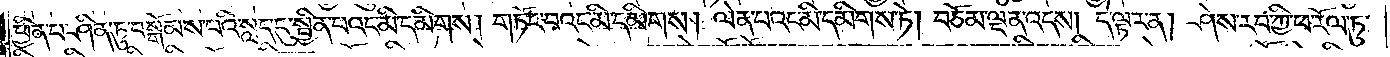ཕྱིན་པ་ཤིན་ཏུ་བསྒོམས་པའི་སླད་དུ་སྦྱིན་པའང་མི་དམིགས། གཏོང་བའང་མི་དམིགས། ལེན་པའང་མི་དམིགས་ཏེ། བཅོམ་ལྡན་འདས། དེ་ལྟར་ན། ཤེས་རབ་ཀྱི་ཕ་རོལ་ཏུ་
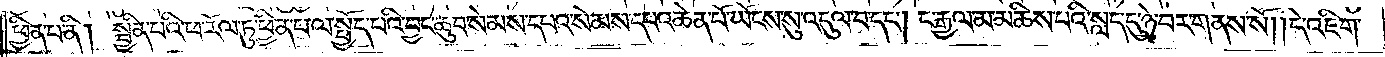ཕྱིན་པ་ནི། སྦྱིན་པའི་ཕ་རོལ་ཏུ་ཕྱིན་པ་ལ་སྤྱོད་པའི་བྱང་ཆུབ་སེམས་དཔའ་སེམས་དཔའ་ཆེན་པོ་ཡོངས་སུ་འདུལ་བ་དང༌། ང་རྒྱལ་མ་མཆིས་པའི་སླད་དུ་ཉེ་བར་གནས་སོ། །དེ་འཇིག་
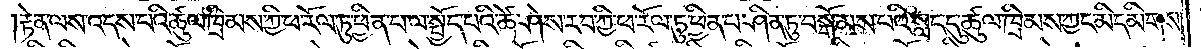རྟེན་ལས་འདས་པའི་ཚུལ་ཁྲིམས་ཀྱི་ཕ་རོལ་ཏུ་ཕྱིན་པ་ལ་སྤྱོད་པའི་ཚེ་ཤེས་རབ་ཀྱི་ཕ་རོལ་ཏུ་ཕྱིན་པ་ཤིན་ཏུ་བསྒོམས་པའི་སླད་དུ་ཚུལ་ཁྲིམས་ཀྱང་མི་དམིགས།
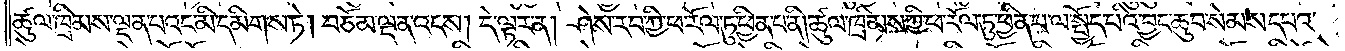ཚུལ་ཁྲིམས་དང་ལྡན་པའང་མི་དམིགས་ཏེ། བཅོམ་ལྡན་འདས། དེ་ལྟར་ན། ཤེས་རབ་ཀྱི་ཕ་རོལ་ཏུ་ཕྱིན་པ་ནི་ཚུལ་ཁྲིམས་ཀྱི་ཕ་རོལ་ཏུ་ཕྱིན་པ་ལ་སྤྱོད་པའི་བྱང་ཆུབ་སེམས་དཔའ་
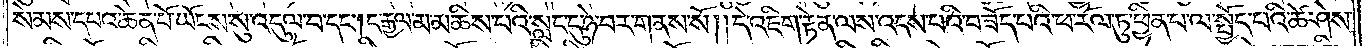སེམས་དཔའ་ཆེན་པོ་ཡོངས་སུ་འདུལ་བ་དང༌། ང་རྒྱལ་མ་མཆིས་པའི་སླད་དུ་ཉེ་བར་གནས་སོ། །དེ་འཇིག་རྟེན་ལས་འདས་པའི་བཟོད་པའི་ཕ་རོལ་ཏུ་ཕྱིན་པ་ལ་སྤྱོད་པའི་ཚེ་ཤེས་
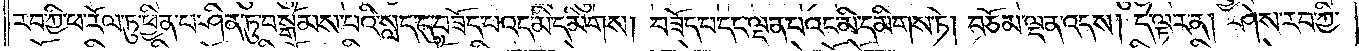རབ་ཀྱི་ཕ་རོལ་ཏུ་ཕྱིན་པ་ཤིན་ཏུ་བསྒོམས་པའི་སླད་དུ་བཟོད་པའང་མི་དམིགས། བཟོད་པ་དང་ལྡན་པའང་མི་དམིགས་ཏེ། བཅོམ་ལྡན་འདས། དེ་ལྟར་ན། ཤེས་རབ་ཀྱི་
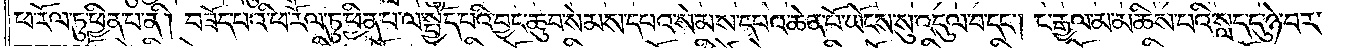ཕ་རོལ་ཏུ་ཕྱིན་པ་ནི། བཟོད་པའི་ཕ་རོལ་ཏུ་ཕྱིན་པ་ལ་སྤྱོད་པའི་བྱང་ཆུབ་སེམས་དཔའ་སེམས་དཔའ་ཆེན་པོ་ཡོངས་སུ་འདུལ་བ་དང༌། ང་རྒྱལ་མ་མཆིས་པའི་སླད་དུ་ཉེ་བར་
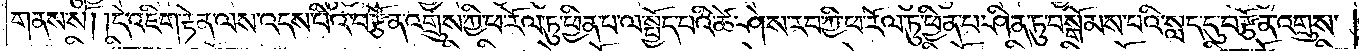གནས་སོ། །དེ་འཇིག་རྟེན་ལས་འདས་པའི་བརྩོན་འགྲུས་ཀྱི་ཕ་རོལ་ཏུ་ཕྱིན་པ་ལ་སྤྱོད་པའི་ཚེ་ཤེས་རབ་ཀྱི་ཕ་རོལ་ཏུ་ཕྱིན་པ་ཤིན་ཏུ་བསྒོམས་པའི་སླད་དུ་བརྩོན་འགྲུས་
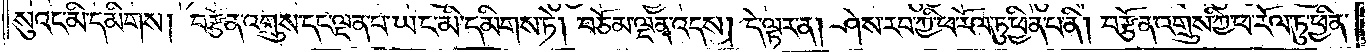སུའང་མི་དམིགས། བརྩོན་འགྲུས་དང་ལྡན་པར་ཡང་མི་དམིགས་ཏེ། བཅོམ་ལྡན་འདས། དེ་ལྟར་ན། ཤེས་རབ་ཀྱི་ཕ་རོལ་ཏུ་ཕྱིན་པ་ནི། བརྩོན་འགྲུས་ཀྱི་ཕ་རོལ་ཏུ་ཕྱིན་
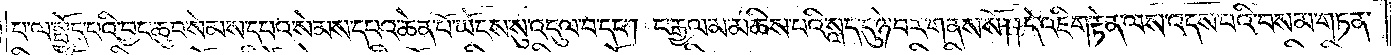པ་ལ་སྤྱོད་པའི་བྱང་ཆུབ་སེམས་དཔའ་སེམས་དཔའ་ཆེན་པོ་ཡོངས་སུ་འདུལ་བ་དང༌། ང་རྒྱལ་མ་མཆིས་པའི་སླད་དུ་ཉེ་བར་གནས་སོ། །དེ་འཇིག་རྟེན་ལས་འདས་པའི་བསམ་གཏན་
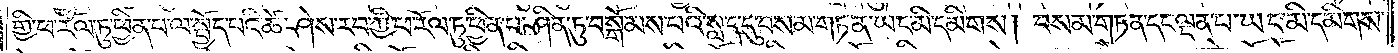གྱི་ཕ་རོལ་ཏུ་ཕྱིན་པ་ལ་སྤྱོད་པའི་ཚེ་ཤེས་རབ་ཀྱི་ཕ་རོལ་ཏུ་ཕྱིན་པ་ཤིན་ཏུ་བསྒོམས་པའི་སླད་དུ་བསམ་གཏན་དུའང་མི་དམིགས། བསམ་གཏན་དང་ལྡན་པར་ཡང་མི་དམིགས་
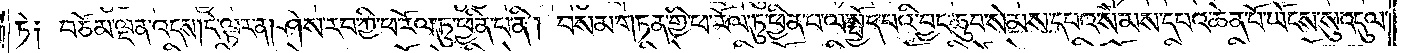ཏེ། བཅོམ་ལྡན་འདས། དེ་ལྟར་ན། ཤེས་རབ་ཀྱི་ཕ་རོལ་ཏུ་ཕྱིན་པ་ནི། བསམ་གཏན་གྱི་ཕ་རོལ་ཏུ་ཕྱིན་པ་ལ་སྤྱོད་པའི་བྱང་ཆུབ་སེམས་དཔའ་སེམས་དཔའ་ཆེན་པོ་ཡོངས་སུ་འདུལ་
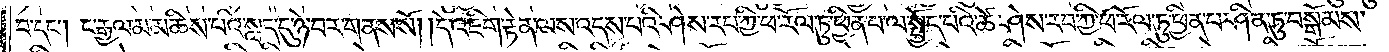བ་དང༌། ང་རྒྱལ་མ་མཆིས་པའི་སླད་དུ་ཉེ་བར་གནས་སོ། །དེ་འཇིག་རྟེན་ལས་འདས་པའི་ཤེས་རབ་ཀྱི་ཕ་རོལ་ཏུ་ཕྱིན་པ་ལ་སྤྱོད་པའི་ཚེ་ཤེས་རབ་ཀྱི་ཕ་རོལ་ཏུ་ཕྱིན་པ་ཤིན་ཏུ་བསྒོམས་
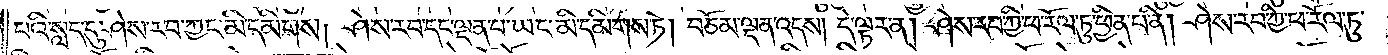པའི་སླད་དུ་ཤེས་རབ་ཀྱང་མི་དམིགས། ཤེས་རབ་དང་ལྡན་པ་ཡང་མི་དམིགས་ཏེ། བཅོམ་ལྡན་འདས། དེ་ལྟར་ན། ཤེས་རབ་ཀྱི་ཕ་རོལ་ཏུ་ཕྱིན་པ་ནི། ཤེས་རབ་ཀྱི་ཕ་རོལ་ཏུ་
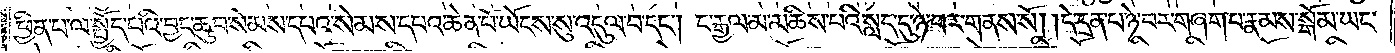ཕྱིན་པ་ལ་སྤྱོད་པའི་བྱང་ཆུབ་སེམས་དཔའ་སེམས་དཔའ་ཆེན་པོ་ཡོངས་སུ་འདུལ་བ་དང༌། ང་རྒྱལ་མ་མཆིས་པའི་སླད་དུ་ཉེ་བར་གནས་སོ། །དེ་དྲན་པ་ཉེ་བར་གཞག་པ་རྣམས་སྒོམ་ཡང་
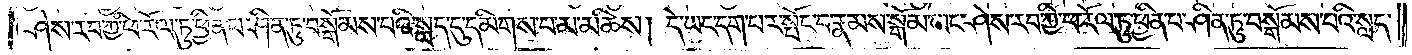ཤེས་རབ་ཀྱི་ཕ་རོལ་ཏུ་ཕྱིན་པ་ཤིན་ཏུ་བསྒོམས་པའི་སླད་དུ་དམིགས་པ་མ་མཆིས། དེ་ཡང་དག་པར་སྤོང་བ་རྣམས་སྒོམ་ཡང་ཤེས་རབ་ཀྱི་ཕ་རོལ་ཏུ་ཕྱིན་པ་ཤིན་ཏུ་བསྒོམས་པའི་སླད་
